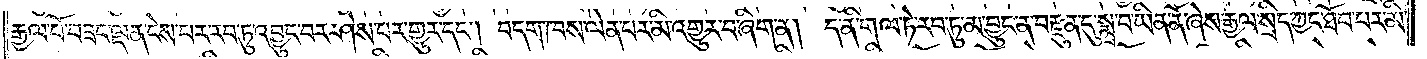རྒྱལ་པོ་བཟང་ལྡན་ངེས་པར་རབ་ཏུ་འབྱུང་བར་ཤེས་པར་གྱུར་དང༌། བདག་ཁས་ལེན་པར་མི་འགྱུར་བ་ཞིག་ན། ད་ནི་གལ་ཏེ་རབ་ཏུ་མ་བྱུང་ན་བརྫུན་དུ་སྨྲ་བ་ཡིན་ནོ་ཞེས་རྒྱལ་སྲིད་ཀྱང་ཐོབ་པར་མི་
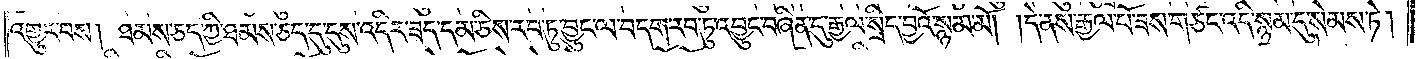འགྱུར་བས། ཐམས་ཅད་ཀྱི་ཐམས་ཅད་དུ་དུས་འདིར་ཟད་དམ་ཅིས་རབ་ཏུ་བྱུང་ལ་བདག་རབ་ཏུ་འབྱུང་བཞིན་དུ་རྒྱལ་སྲིད་བྱའོ་སྙམ་མོ། །དེ་ནས་རྒྱལ་པོ་ཟས་གཙང་འདི་སྙམ་དུ་སེམས་ཏེ།
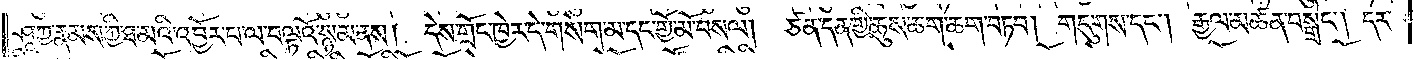ཤཱཀྱ་རྣམས་ཀྱི་ཐ་མའི་འབྱོར་པ་ལ་བལྟའོ་སྙམ་ནས། དེས་གྲོང་ཁྱེར་དེ་གསེག་མ་དང་གྱོ་མོ་བསལ། ཙན་དན་གྱི་ཆུས་ཆག་ཆག་བཏབ། གདུགས་དང༌། རྒྱལ་མཚན་བསྒྲེང༌། དར་
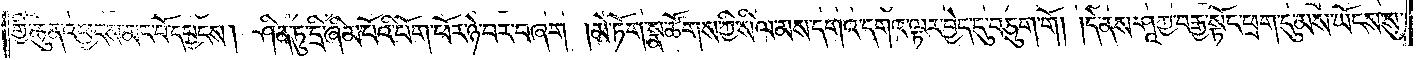གྱི་ཆུན་འཕྱངས་མང་པོ་དབྱངས། ཤིན་ཏུ་དྲི་ཞིམ་པོའི་པོག་ཕོར་ཉེ་བར་བཞག །མེ་ཏོག་སྣ་ཚོགས་ཀྱི་སིལ་མས་དགའ་དགའ་ལྡན་བྱེད་དུ་བཅུག་གོ། །དེ་ནས་ཤཱཀྱ་བརྒྱ་སྟོང་ཕྲག་དུ་མས་ཡོངས་སུ་
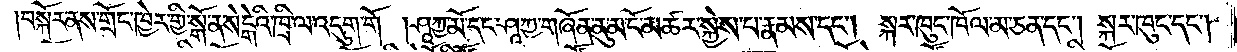བསྐོར་ནས་གྲོང་ཁྱེར་གྱི་སྒོ་ན་སེངྒེའི་ཁྲི་ལ་འདུག་གོ །ཤཱཀྱ་མོ་དང་ཤཱཀྱ་གཞོན་ནུ་མ་ངོ་མཚར་སྐྱེས་པ་རྣམས་ཀྱང༌། སྐར་ཁུང་ཁོལ་མ་ཅན་དང༌། སྐར་ཁུང་དང༌།
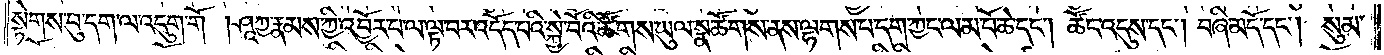སྟེགས་བུ་དག་ལ་འདུག་གོ །ཤཱཀྱ་རྣམས་ཀྱི་འབྱོར་པ་ལ་ལྟ་བར་འདོད་པའི་སྐྱེ་བོའི་ཚོགས་ཡུལ་སྣ་ཚོགས་ནས་ལྷགས་པ་དག་ཀྱང་ལམ་པོ་ཆེ་དང༌། ཚོང་འདུས་དང༌། བཞི་མདོ་དང༌། སུམ་
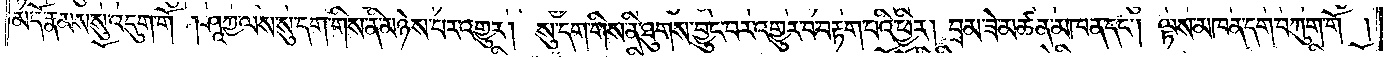མདོ་རྣམས་སུ་འདུག་གོ །ཤཱཀྱ་ལས་སུ་དག་གིས་ནི་མཉེས་པར་འགྱུར། །སུ་དག་གིས་ནི་ཐུགས་བྱུང་བར་འགྱུར་བ་བརྟག་པའི་ཕྱིར། བྲམ་ཟེ་མཚན་མཁན་དང༌། ལྟས་མཁན་དག་པ་བཀུག་གོ།
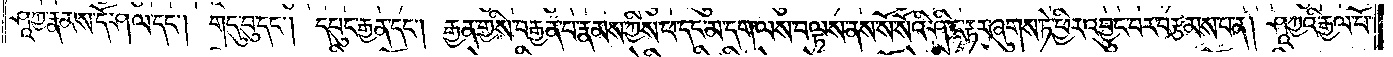ཤཱཀྱ་རྣམས་དོ་ཤལ་དང༌། གདུ་བུ་དང༌། དཔུང་རྒྱན་དང༌། རྒྱན་གྱིས་བརྒྱན་པ་རྣམས་ཀྱིས་ཕ་དང་མ་དག་ལས་བལྟས་ནས་སོ་སོའི་ཤིང་རྟར་ཞུགས་ཏེ་ཕྱིར་འབྱུང་བར་བརྩམས་པ་ན། ཤཱཀྱའི་རྒྱལ་པོ་
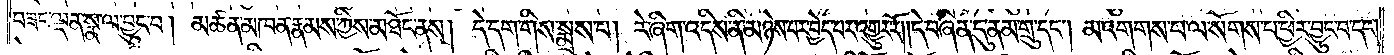བཟང་ལྡན་སྣ་ལ་བྱུང་བ། མཚན་མཁན་རྣམས་ཀྱིས་མཐོང་ནས། དེ་དག་གིས་སྨྲས་པ། རེ་ཞིག་འདིས་ནི་མཉེས་པར་བྱེད་པར་འགྱུར་རོ། །དེ་བཞིན་དུ་ནམ་གྲུ་དང༌། མ་འགགས་པ་ལ་སོགས་པ་ཕྱིར་བྱུང་བ་དང༌།
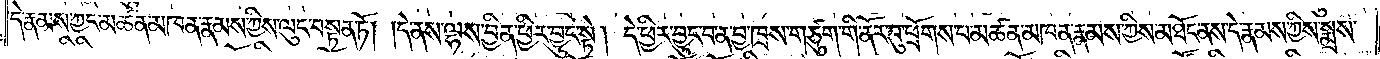དེ་རྣམས་ཀྱང་མཚན་མཁན་རྣམས་ཀྱིས་ལུང་བསྟན་ཏོ། །དེ་ནས་ལྷས་བྱིན་ཕྱིར་བྱུང་སྟེ། དེ་ཕྱིར་བྱུང་བ་ན་བྱ་ཁྲས་གཙུག་གི་ནོར་བུ་ཕྲོགས་པ་མཚན་མཁན་རྣམས་ཀྱིས་མཐོང་ནས་དེ་རྣམས་ཀྱིས་སྨྲས་
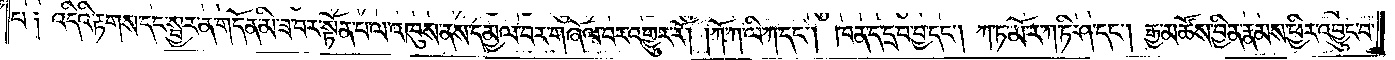པ༑ འདིའི་རྟགས་དང་སྦྱར་ན་གདོན་མི་ཟ་བར་སྟོན་པ་ལ་འཁུས་ནས་དམྱལ་བར་གཞོལ་བར་འགྱུར་རོ། །ཀོ་ཀ་ལི་ཀ་དང༌། ཁན་ད་དྲ་བ་བྱ་དང༌། ཀ་ཏ་མོ་ར་ཀ་ཏི་ཤ་དང༌། རྒྱ་མཚོས་བྱིན་རྣམས་ཕྱིར་འབྱུང་བ་
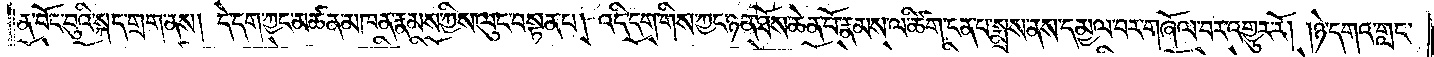ན་བོང་བུའི་སྐད་གྲག་ནས། དེ་དག་ཀྱང་མཚན་མཁན་རྣམས་ཀྱིས་ལུང་བསྟན་པ། འདི་དག་གིས་ཀྱང་ཉན་ཐོས་ཆེན་པོ་རྣམས་ལ་ཚིག་ངན་པ་སྨྲས་ནས་དམྱལ་བར་གཞོལ་བར་འགྱུར་རོ། །ཉེ་དགའ་གླང་
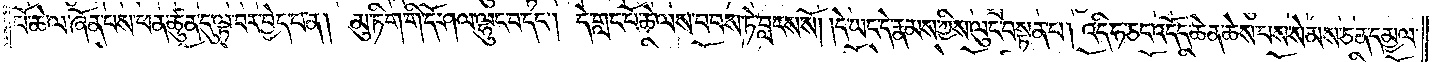པོ་ཆེ་ལ་ཞོན་པས་ཕན་ཚུན་དུ་ལྟ་བར་བྱེད་པ་ན། མུ་ཏིག་གི་དོ་ཤལ་ལྷུང་བ་དང༌། དེ་གླང་པོ་ཆེ་ལས་བབས་ཏེ་བླངས་སོ། །དེ་ཡང་དེ་རྣམས་ཀྱིས་ལུང་བསྟན་པ། འདི་ཧ་ཅང་འདོད་ཆེན་ཆེས་པས་སེམས་ཅན་དམྱལ་
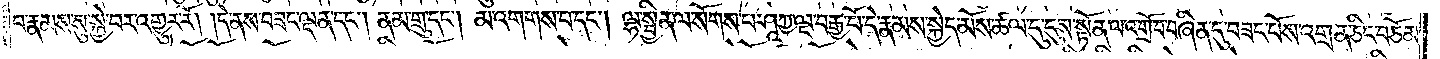བ་རྣམས་སུ་སྐྱེ་བར་འགྱུར་རོ། །དེ་ནས་བཟང་ལྡན་དང༌། ནམ་གྲུ་དང༌། མ་འགགས་པ་དང༌། ལྷ་སྦྱིན་ལ་སོགས་པ་ཤཱཀྱ་ལྔ་བརྒྱ་པོ་དེ་རྣམས་སྐྱེད་མོས་ཚལ་དུ་དུས་སྟོན་ལ་འགྲོ་བ་བཞིན་དུ་བཟང་པོས་འགྲན་ཅིང་བཅོམ་
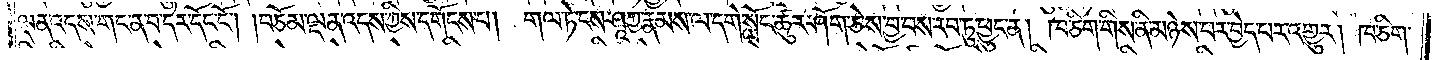ལྡན་འདས་གང་ན་བ་དེར་དོང་ངོ༌། །བཅོམ་ལྡན་འདས་ཀྱིས་དགོངས་པ། གལ་ཏེ་ངས་ཤཱཀྱ་རྣམས་ལ་དགེ་སློང་ཚུར་ཤོག་ཅེས་བྱ་བས་རབ་ཏུ་ཕྱུང་ན། ཁ་ཅིག་གིས་ནི་མཉེས་པར་བྱེད་པར་འགྱུར། ཁ་ཅིག་
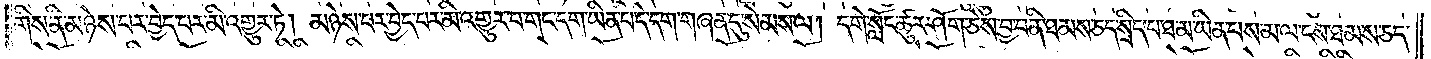གིས་ནི་མཉེས་པར་བྱེད་པར་མི་འགྱུར་ཏེ། མཉེས་པར་བྱེད་པར་མི་འགྱུར་བ་གང་དག་ཡིན་པ་དེ་དག་གཞན་དུ་སེམས་ལ། དགེ་སློང་ཚུར་ཤོག་ཅེས་བྱ་བ་ནི་ཐམས་ཅད་སྲིད་པ་ཐ་མ་ཡིན་པས་མ་ལ་ངས་ཐམས་ཅད་
